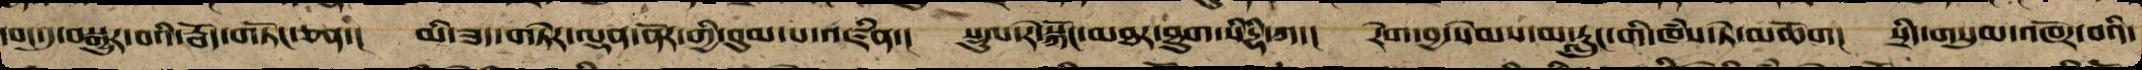དབང་དུ་བསྒྱུར་བའི་རྦོད་གཏོང་ཅན་། མི་ཟད་གཏེར་ལྡན་ནོར་གྱི་བུམ་པ་འཛིན་། སྡུག་བསྔལ་རེ་སྐོང་མཐར་ཐུག་སིདྡྷི་ཀ་། རེག་བྱའི་སེམས་མ་རླུང་གི་ཁཾས་ཏེ་མཆོག། སྲིད་གསུམ་འཁོར་བའི་
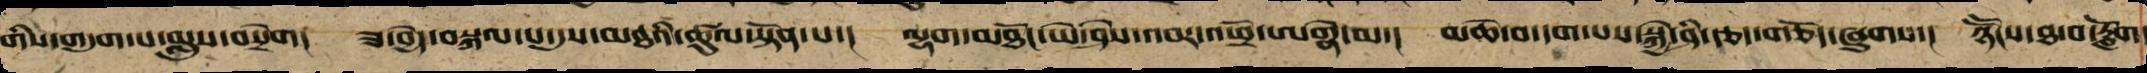གིས་གདུག་པ་མླུས་བསྲེག། ཟ་བྱེད་བསྐལ་པ་དུས་མཐའི་ཚུལ་སྟོན་པ་། ལྷག་མཐོང་ཡེ་ཤེས་འབར་འཕྲོ་ཨགྣེ་ཡེ་། མཆེ་བ་དག་པས་སྐྱེ་ཤི་རྩད་གཅོད་ཞུགས་། ཉོོོཽངས་ཐ་བ་རློག་
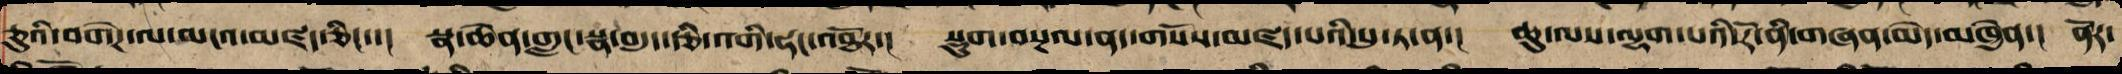ཅུའི་བགེཌ་ལ་མངའ་མཛད་ཅིང་་། སྣ་ཆེན་གླང་སྣ་བདུད་རྩི་འགི་ཧང་འཐོར་། སྡུག་བསྔལ་ནད་གསོས་མཛད་པའི་སུ་ཏ་ན་། ཆུ་ལས་ལྷག་པའི་རོ་ནི་གཞན་མེད་མཁྱེན་། ནོར་
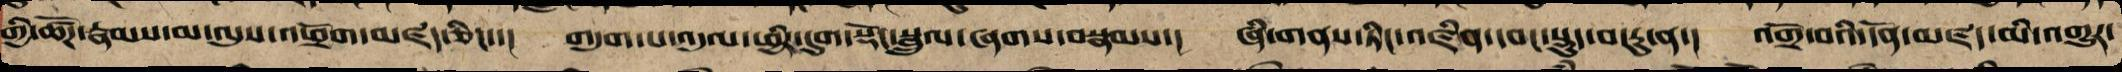གྱི་ཚོཌ་རྣམས་མ་ལུས་འཕྲོག་མཛད་ཅིང་་། གདུག་པ་འདུལ་ཕྱིར་དུག་སྡོང་སྦྲུལ་ཞགས་བསྣམས་། ཞི་གནས་ཏིང་འཛིན་དབང་སྡུད་བ་རུ་ན་། འགྲོ་བའི་དོན་མཛད་མི་འགྱུར་
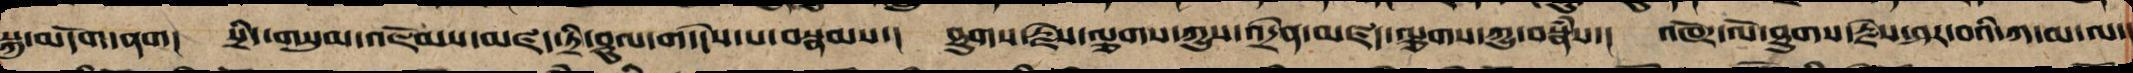སྐུ་མདོག་ནག། སྲིད་གསུམ་འཇོམས་མཛད་ཏྲི་ཤུལ་གདེངས་པ་བསྣམས་། ཐུགས་རྗེས་ལྕགས་ཀྱུས་འདྲེན་མཛད་ལྕགས་ཀྱུ་བསྣཾས་། འཁོར་བར་ཐུགས་རྗེ་ཤར་བའི་ཀ་མ་ལ་།
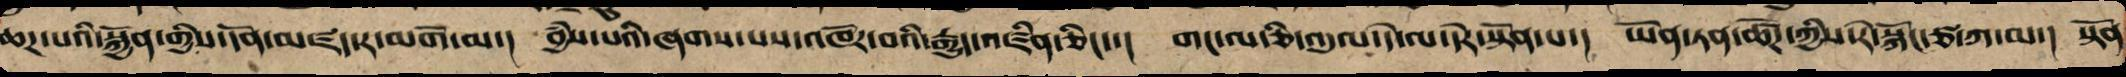ཆཌ་པའི་སྐྱོན་གྱི་དོན་མཛད་ར་མགོ་མ་། བྱཾས་པའི་ཞགས་པས་འཁོར་བའི་རྒྱུད་འཛིན་ཅིང་་། གང་ལ་ཅི་འདུལ་དེ་ལ་དེར་སྟོན་པ་། ཡོན་ཏན་ཚོཌ་ཀྱིས་རེ་སྐོང་ཙ་ཀ་མ་། སྟོན
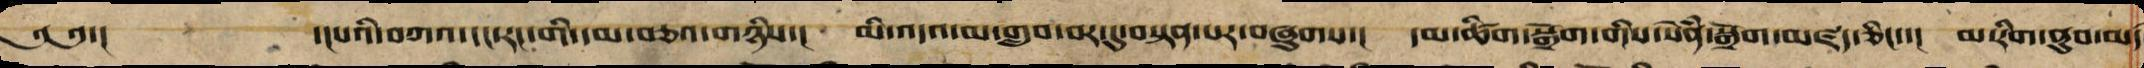༄༅་། ་།པའི་བཀའ་དང་རང་གི་དམ་བཅས་གཉིས་། མི་འདའ་མ་གྲུབ་བར་དུ་བརྟན་པར་བཞུགས་། དམ་ཚིག་སྒྲོག་གིས་སེཾན་སྒྲོལ་མཛད་ཅིང་་། མ་རིག་ནུབ་མ
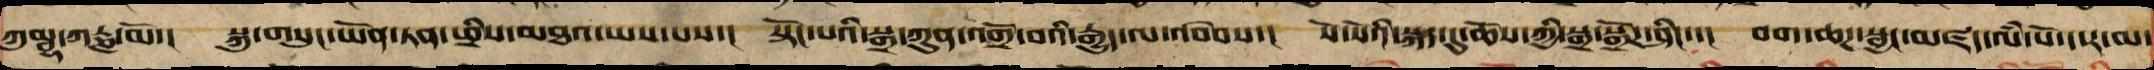ཀུམྦྷ་ཀཪྞ་མོ་། སྐུ་གསུང་ཡོན་ཏན་ཕྲིན་ལས་མཐའ་ཡས་པས་། སྟོང་པའི་སྒྲ་ཀུན་འགྲོ་བའི་རྒྱུད་ལ་འབེབས་། སོ་སོའི་སྐད་དུ་ཆོས་ཀྱི་སྒྲ་སྒྲོཌ་ཤིང་་། བག་ཆཌ་སྦྱང་མཛད་ལཾ་སོ་ད་ར་མ་
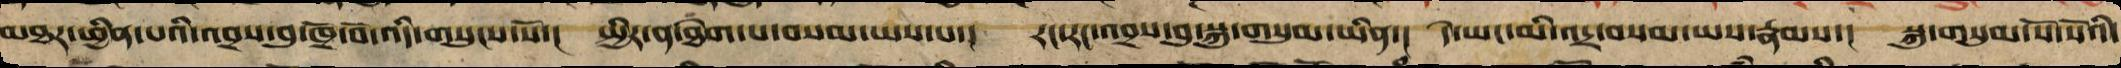མཐར་ཕྱིན་པའི་འབྲས་བུ་ཁྲོ་བོ་འདི་གསུངས་སོ་། སྤྱིར་ན་ཐེག་པ་བསམ་ཡས་པ་། རང་རང་འབྲས་བུ་སྐུ་གསུམ་ཡིན་། དེ་ཡང་མི་འདྲ་བསམ་ཡས་རྣམས་། སྐུ་གསུམ་སོ་སོའི་
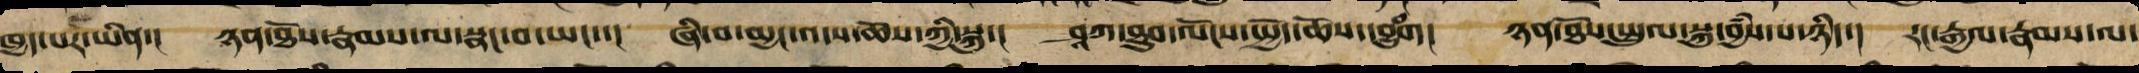ཁྱད་པར་ཡིན་། ཉན་ཐོས་རྣམས་ལ་སྣང་བ་ཡང་་། ཞི་བ་མྱང་འདས་ཆོས་ཀྱི་སྐུ་། ཤཱཀ་ཐུབ་ལོངས་སྤྱོད་ཆོས་དབྱུཾག། ཉན་ཐོས་སྤྲུལ་སྐུ་བྱཾས་པ་ཉིད་། རང་རྒྱལ་རྣམས་ལ་
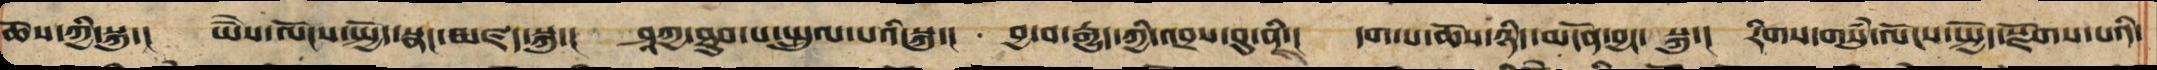ཆོས་ཀྱི་སྐུ་། ཡཻས་ལོངས་སྤྱོད་སྣང་མཛད་སྐུ་། ཤཱཀྱ་ཐུབ་པ་སྤྲུལ་པའི་སྐུ་། བྱ་བ་རྒྱུད་ཀྱི་འབྲས་བུ་ནི་། དག་པ་ཆོས་ཉིད་མངོན་བྱང་སྐུ་། རིགས་གསུཾ་ལོངས་སྤྱོད་སྫོགས་པའི་
